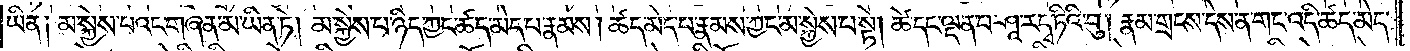ཡིན༏ མ་སྐྱེས་པའང་གཞན་མ་ཡིན་ཏེ། མ་སྐྱེས་པ་ཉིད་ཀྱང་ཚད་མེད་པ་རྣམས། ཚད་མེད་པ་རྣམས་ཀྱང་མ་སྐྱེས་པ་སྟེ། ཚེ་དང་ལྡན་པ་ཤཱ་ར་དྭ་ཏིའི་བུ། རྣམ་གྲངས་དེས་ན་གང་འདི་ཚད་མེད་
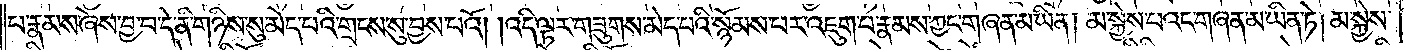པ་རྣམས་ཞེས་བྱ་བ་དེ་ནི་གཉིས་སུ་མེད་པའི་གྲངས་སུ་བྱས་པའོ། །འདི་ལྟར་གཟུགས་མེད་པའི་སྙོམས་པར་འཇུག་པ་རྣམས་ཀྱང་གཞན་མ་ཡིན། མ་སྐྱེས་པའང་གཞན་མ་ཡིན་ཏེ། མ་སྐྱེས་
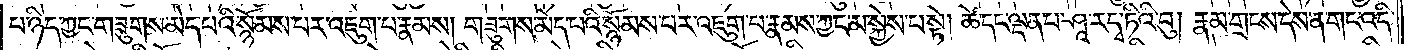པ་ཉིད་ཀྱང་གཟུགས་མེད་པའི་སྙོམས་པར་འཇུག་པ་རྣམས། གཟུགས་མེད་པའི་སྙོམས་པར་འཇུག་པ་རྣམས་ཀྱང་མ་སྐྱེས་པ་སྟེ། ཚེ་དང་ལྡན་པ་ཤཱ་ར་དྭ་ཏིའི་བུ། རྣམ་གྲངས་དེས་ན་གང་འདི་
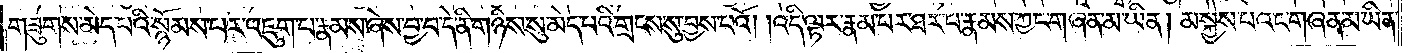གཟུགས་མེད་པའི་སྙོམས་པར་འཇུག་པ་རྣམས་ཞེས་བྱ་བ་དེ་ནི་གཉིས་སུ་མེད་པའི་གྲངས་སུ་བྱས་པའོ། །འདི་ལྟར་རྣམ་པར་ཐར་པ་རྣམས་ཀྱང་གཞན་མ་ཡིན། མ་སྐྱེས་པའང་གཞན་མ་ཡིན་
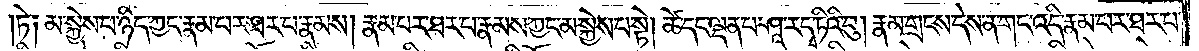ཏེ༏ མ་སྐྱེས་པ་ཉིད་ཀྱང་རྣམ་པར་ཐར་པ་རྣམས། རྣམ་པར་ཐར་པ་རྣམས་ཀྱང་མ་སྐྱེས་པ་སྟེ། ཚེ་དང་ལྡན་པ་ཤཱ་ར་དྭ་ཏིའི་བུ། རྣམ་གྲངས་དེས་ན་གང་འདི་རྣམ་པར་ཐར་པ་
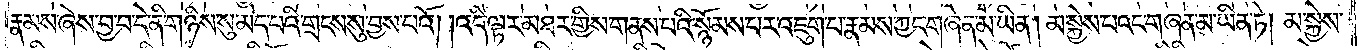རྣམས་ཞེས་བྱ་བ་དེ་ནི་གཉིས་སུ་མེད་པའི་གྲངས་སུ་བྱས་པའོ། །འདི་ལྟར་མཐར་གྱིས་གནས་པའི་སྙོམས་པར་འཇུག་པ་རྣམས་ཀྱང་གཞན་མ་ཡིན། མ་སྐྱེས་པའང་གཞན་མ་ཡིན་ཏེ། མ་སྐྱེས་
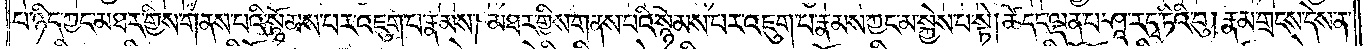པ་ཉིད་ཀྱང་མཐར་གྱིས་གནས་པའི་སྙོམས་པར་འཇུག་པ་རྣམས། མཐར་གྱིས་གནས་པའི་སྙོམས་པར་འཇུག་པ་རྣམས་ཀྱང་མ་སྐྱེས་པ་སྟེ། ཚེ་དང་ལྡན་པ་ཤཱ་ར་དྭ་ཏིའི་བུ། རྣམ་གྲངས་དེས་ན་
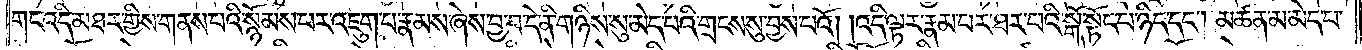གང་འདི་མཐར་གྱིས་གནས་པའི་སྙོམས་པར་འཇུག་པ་རྣམས་ཞེས་བྱ་བ་དེ་ནི་གཉིས་སུ་མེད་པའི་གྲངས་སུ་བྱས་པའོ། །འདི་ལྟར་རྣམ་པར་ཐར་པའི་སྒོ་སྟོང་པ་ཉིད་དང༌། མཚན་མ་མེད་པ་
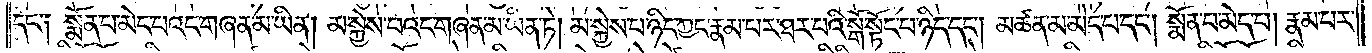དང༌༏ སྨོན་པ་མེད་པའང་གཞན་མ་ཡིན། མ་སྐྱེས་པའང་གཞན་མ་ཡིན་ཏེ། མ་སྐྱེས་པ་ཉིད་ཀྱང་རྣམ་པར་ཐར་པའི་སྒོ་སྟོང་པ་ཉིད་དང༌། མཚན་མ་མེད་པ་དང༌། སྨོན་པ་མེད་པ། རྣམ་པར་
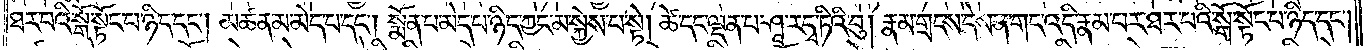ཐར་པའི་སྒོ་སྟོང་པ་ཉིད་དང༌། མཚན་མ་མེད་པ་དང༌། སྨོན་པ་མེད་པ་ཉིད་ཀྱང་མ་སྐྱེས་པ་སྟེ། ཚེ་དང་ལྡན་པ་ཤཱ་ར་དྭ་ཏིའི་བུ། རྣམ་གྲངས་དེས་ན་གང་འདི་རྣམ་པར་ཐར་པའི་སྒོ་སྟོང་པ་ཉིད་དང༌།
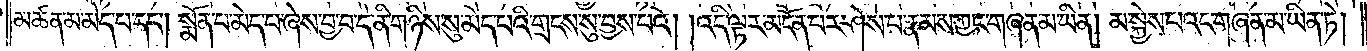མཚན་མ་མེད་པ་དང༌། སྨོན་པ་མེད་པ་ཞེས་བྱ་བ་དེ་ནི་གཉིས་སུ་མེད་པའི་གྲངས་སུ་བྱས་པའོ། །འདི་ལྟར་མངོན་པར་ཤེས་པ་རྣམས་ཀྱང་གཞན་མ་ཡིན། མ་སྐྱེས་པའང་གཞན་མ་ཡིན་ཏེ།
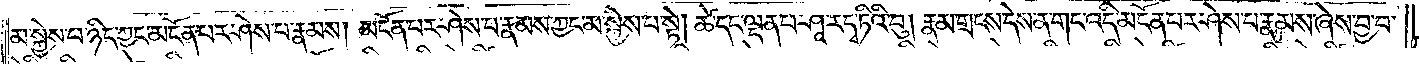མ་སྐྱེས་པ་ཉིད་ཀྱང་མངོན་པར་ཤེས་པ་རྣམས། མངོན་པར་ཤེས་པ་རྣམས་ཀྱང་མ་སྐྱེས་པ་སྟེ། ཚེ་དང་ལྡན་པ་ཤཱ་ར་དྭ་ཏིའི་བུ། རྣམ་གྲངས་དེས་ན་གང་འདི་མངོན་པར་ཤེས་པ་རྣམས་ཞེས་བྱ་བ་
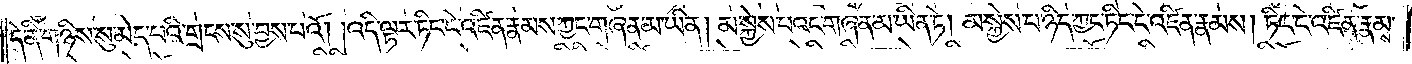དེ་ནི་གཉིས་སུ་མེད་པའི་གྲངས་སུ་བྱས་པའོ། །འདི་ལྟར་ཏིང་ངེ་འཛིན་རྣམས་ཀྱང་གཞན་མ་ཡིན། མ་སྐྱེས་པའང་གཞན་མ་ཡིན་ཏེ། མ་སྐྱེས་པ་ཉིད་ཀྱང་ཏིང་ངེ་འཛིན་རྣམས། ཏིང་ངེ་འཛིན་རྣམས་
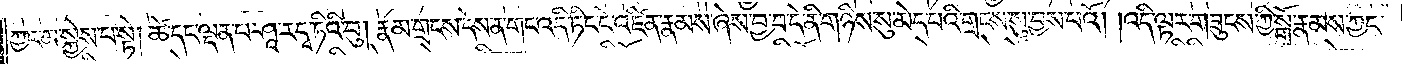ཀྱང་མ་སྐྱེས་པ་སྟེ། ཚེ་དང་ལྡན་པ་ཤཱ་ར་དྭ་ཏིའི་བུ། རྣམ་གྲངས་དེས་ན་གང་འདི་ཏིང་ངེ་འཛིན་རྣམས་ཞེས་བྱ་བ་དེ་ནི་གཉིས་སུ་མེད་པའི་གྲངས་སུ་བྱས་པའོ། །འདི་ལྟར་གཟུངས་ཀྱི་སྒོ་རྣམས་ཀྱང་
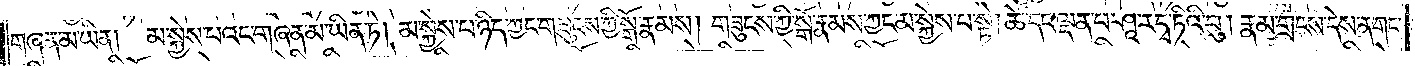གཞན་མ་ཡིན། མ་སྐྱེས་པའང་གཞན་མ་ཡིན་ཏེ། མ་སྐྱེས་པ་ཉིད་ཀྱང་གཟུངས་ཀྱི་སྒོ་རྣམས། གཟུངས་ཀྱི་སྒོ་རྣམས་ཀྱང་མ་སྐྱེས་པ་སྟེ། ཚེ་དང་ལྡན་པ་ཤཱ་ར་དྭ་ཏིའི་བུ། རྣམ་གྲངས་དེས་ན་གང་
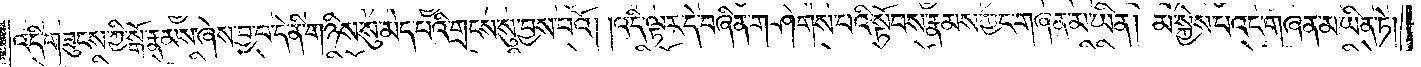འདི་གཟུངས་ཀྱི་སྒོ་རྣམས་ཞེས་བྱ་བ་དེ་ནི་གཉིས་སུ་མེད་པའི་གྲངས་སུ་བྱས་པའོ། །འདི་ལྟར་དེ་བཞིན་གཤེགས་པའི་སྟོབས་རྣམས་ཀྱང་གཞན་མ་ཡིན། མ་སྐྱེས་པའང་གཞན་མ་ཡིན་ཏེ།
